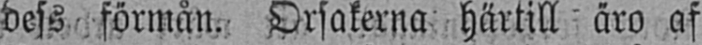dess förmån. Orsakerna härtill äro af
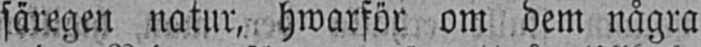säregen natur, hwarför om dem några
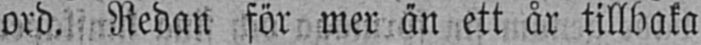ord. Redan för mer än ett år tillbaka
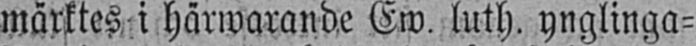märktes i härwarande Ew. luth. ynglinga-
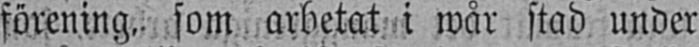förening, som arbetat i wår stad under
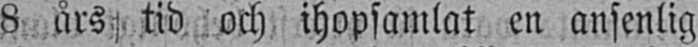8 års tid och ihopsamlat en ansenlig
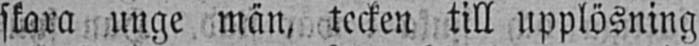skara unge män, tecken till upplösning
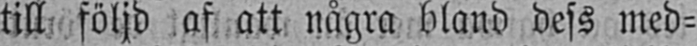till följd af att några bland dess med-
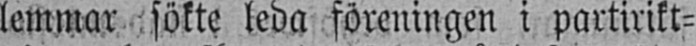lemmar sökte leda föreningen i partirikt-
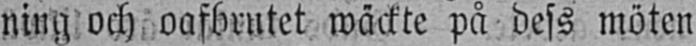ning och oafbrutet wäckte på dess möten
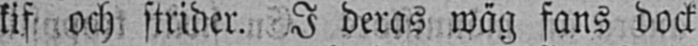kif och strider. I deras wäg fans dock
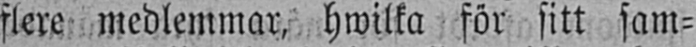flere medlemmar, hwilka för sitt sam-
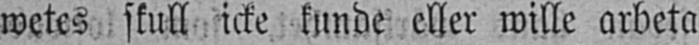wetes skull icke kunde eller wille arbeta
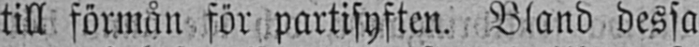till förmån för partisyften. Bland dessa
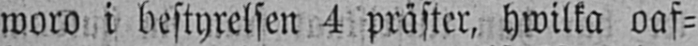woro i bestyrelsen 4 präster, hwilka oaf-
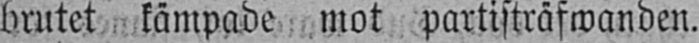brutet kämpade mot partisträfwanden.
